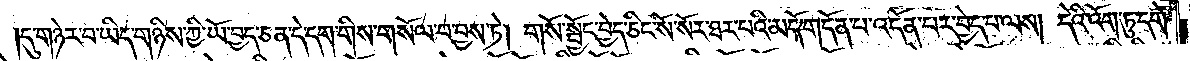དུ་གཉེར་བ་ཡིད་གཉིས་ཀྱི་ཡོ་བྱད་ཅན་དེ་དག་གིས་གསོལ་བ་བྱས་ཏེ། གསོ་སྦྱོང་བྱེད་ཅིང་སོ་སོར་ཐར་པའི་མདོ་གདོན་པ་འདོན་པར་བྱེད་པ་ལས། དེའི་འོག་ཏུ་དགེ་
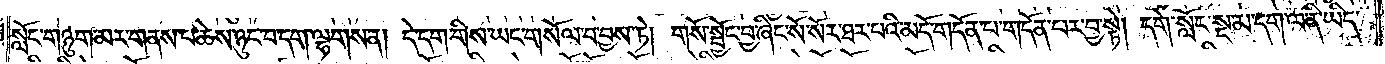སློང་གཉུག་མར་གནས་པ་ཆེས་ཉུང་བ་དག་ལྷགས་ན། དེ་དག་གིས་ཡང་གསོལ་བ་བྱས་ཏེ། གསོ་སྦྱོང་བྱ་ཞིང་སོ་སོར་ཐར་པའི་མདོ་གདོན་པ་གདོན་པར་བྱ་སྟེ། དགེ་སློང་སྔ་མ་དག་ལ་ནི་ཡིད་
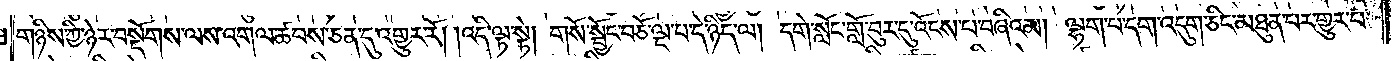གཉིས་ཀྱི་ཉེར་བསྡོགས་ལས་འགལ་ཚབས་ཅན་དུ་འགྱུར་རོ། །འདི་ལྟ་སྟེ། གསོ་སྦྱོང་བཅོ་ལྔ་པ་དེ་ཉིད་ལ། དགེ་སློང་གློ་བུར་དུ་འོངས་པ་བཞིའམ། ལྷག་པ་དག་འདུག་ཅིང་མཐུན་པར་གྱུར་པ་
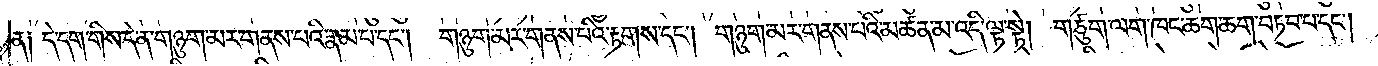ན༑ དེ་དག་གིས་དེ་ན་གཉུག་མར་གནས་པའི་རྣམ་པ་དང༌། གཉུག་མར་གནས་པའི་རྟགས་དང༌། གཉུག་མར་གནས་པའི་མཚན་མ་འདི་ལྟ་སྟེ། གཙུག་ལག་ཁང་ཆག་ཆག་བཏབ་པ་དང༌།
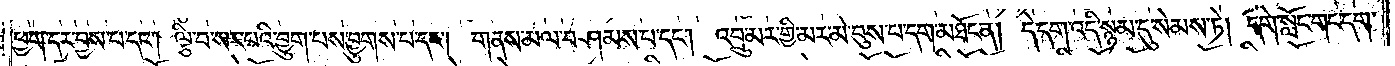ཕྱག་དར་བྱས་པ་དང༌། ལྕི་བ་སར་པའི་བྱུག་པས་བྱུགས་པ་དང༌། གནས་མལ་བཤམས་པ་དང༌། འབྲུ་མར་གྱི་མར་མེ་བུས་པ་དག་མཐོང་ན། དེ་དག་འདི་སྙམ་དུ་སེམས་ཏེ། དགེ་སློང་གང་དག་
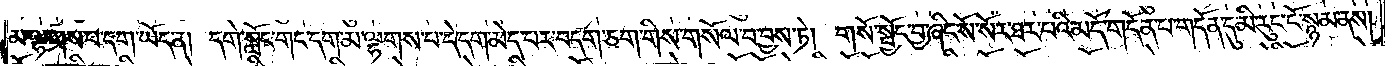མ་ལྷགས་པ་དག་ཡོད་ན། དགེ་སློང་གང་དག་མ་ལྷགས་པ་དེ་དག་མེད་པར་བདག་ཅག་གིས་གསོལ་བ་བྱས་ཏེ། གསོ་སྦྱོང་བྱ་ཞིང་སོ་སོར་ཐར་པའི་མདོ་གདོན་པ་གདོན་དུ་མི་རུང་ངོ་སྙམ་ནས།
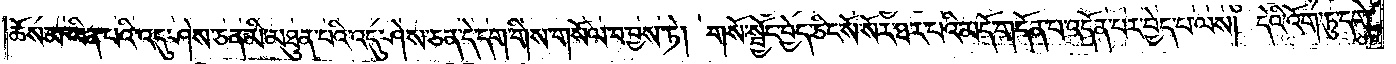ཆོས་མ་ཡིན་པའི་འདུ་ཤེས་ཅན་མི་མཐུན་པའི་འདུ་ཤེས་ཅན་དེ་དག་གིས་གསོལ་བ་བྱས་ཏེ། གསོ་སྦྱོང་བྱེད་ཅིང་སོ་སོར་ཐར་པའི་མདོ་གདོན་པ་འདོན་པར་བྱེད་པ་ལས། དེའི་འོག་ཏུ་དགེ་
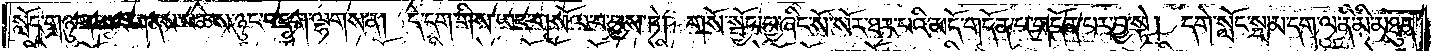སློང་གཉུག་མར་གནས་པ་ཆེས་ཉུང་བ་དག་ལྷགས་ན། དེ་དག་གིས་ཡང་གསོལ་བ་བྱས་ཏེ། གསོ་སྦྱོང་བྱ་ཞིང་སོ་སོར་ཐར་པའི་མདོ་གདོན་པ་གདོན་པར་བྱ་སྟེ། དགེ་སློང་སྔ་མ་དག་ལ་ནི་མི་མཐུན་
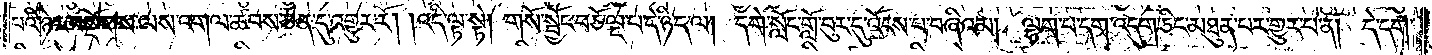པའི་ཉེར་བསྡོགས་ལས་འགལ་ཚབས་ཅན་དུ་འགྱུར་རོ། །འདི་ལྟ་སྟེ། གསོ་སྦྱོང་བཅོ་ལྔ་པ་དེ་ཉིད་ལ། དགེ་སློང་གློ་བུར་དུ་འོངས་པ་བཞིའམ། ལྷག་པ་དག་འདུག་ཅིང་མཐུན་པར་གྱུར་པ་ན། དེ་དག་
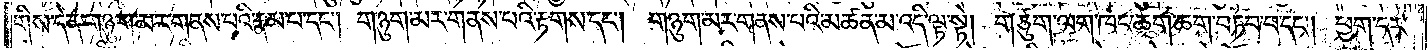གིས་དེ་ན་གཉུག་མར་གནས་པའི་རྣམ་པ་དང༌། གཉུག་མར་གནས་པའི་རྟགས་དང༌། གཉུག་མར་གནས་པའི་མཚན་མ་འདི་ལྟ་སྟེ། གཙུག་ལག་ཁང་ཆག་ཆག་བཏབ་པ་དང༌། ཕྱག་དར་
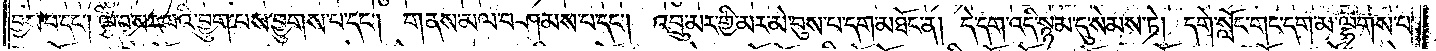བྱས་པ་དང༌། ལྕི་བ་སར་པའི་བྱུག་པས་བྱུགས་པ་དང༌། གནས་མལ་བཤམས་པ་དང༌། འབྲུ་མར་གྱི་མར་མེ་བུས་པ་དག་མཐོང་ན། དེ་དག་འདི་སྙམ་དུ་སེམས་ཏེ། དགེ་སློང་གང་དག་མ་ལྷགས་པ་
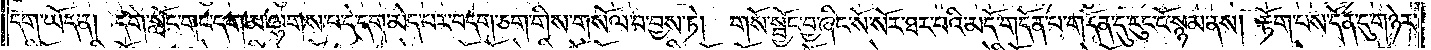དག་ཡོད་ན། དགེ་སློང་གང་དག་མ་ལྷགས་པ་དེ་དག་མེད་པར་བདག་ཅག་གིས་གསོལ་བ་བྱས་ཏེ། གསོ་སྦྱོང་བྱ་ཞིང་སོ་སོར་ཐར་པའི་མདོ་གདོན་པ་གདོན་དུ་རུང་ངོ་སྙམ་ནས། རྟོག་པས་དོན་དུ་གཉེར་
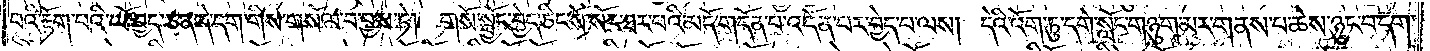བའི་རྟོག་པའི་ཡོ་བྱད་ཅན་དེ་དག་གིས་གསོལ་བ་བྱས་ཏེ། གསོ་སྦྱོང་བྱེད་ཅིང་སོ་སོར་ཐར་པའི་མདོ་གདོན་པ་འདོན་པར་བྱེད་པ་ལས། དེའི་འོག་ཏུ་དགེ་སློང་གཉུག་མར་གནས་པ་ཆེས་ཉུང་བ་དག་
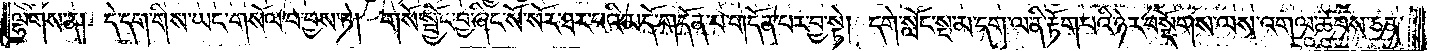ལྷགས་ན། དེ་དག་གིས་ཡང་གསོལ་བ་བྱས་ཏེ། གསོ་སྦྱོང་བྱ་ཞིང་སོ་སོར་ཐར་པའི་མདོ་གདོན་པ་གདོན་པར་བྱ་སྟེ། དགེ་སློང་སྔ་མ་དག་ལ་ནི་རྟོག་པའི་ཉེར་བསྡོགས་ལས་འགལ་ཚབས་ཅན་
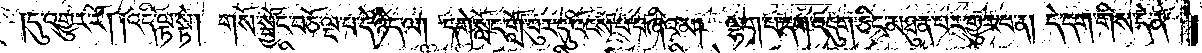།དུ་འགྱུར་རོ། །འདི་ལྟ་སྟེ། གསོ་སྦྱོང་བཅོ་ལྔ་པ་དེ་ཉིད་ལ། དགེ་སློང་གློ་བུར་དུ་འོངས་པ་བཞིའམ། ལྷག་པ་དག་འདུག་ཅིང་མཐུན་པར་གྱུར་པ་ན། དེ་དག་གིས་དེ་ན་
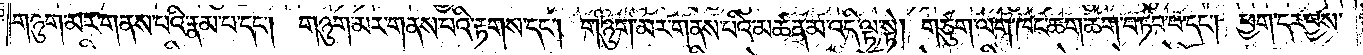གཉུག་མར་གནས་པའི་རྣམ་པ་དང༌། གཉུག་མར་གནས་པའི་རྟགས་དང༌། གཉུག་མར་གནས་པའི་མཚན་མ་འདི་ལྟ་སྟེ། གཙུག་ལག་ཁང་ཆག་ཆག་བཏབ་པ་དང༌། ཕྱག་དར་བྱས་
